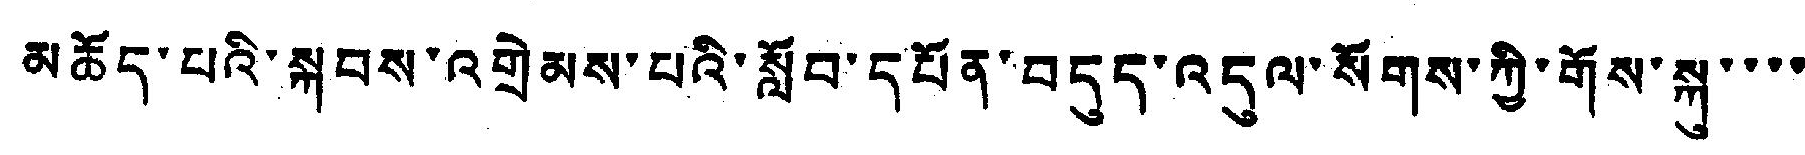མཆོད་པའི་སྐབས་འགྲེམས་པའི་སློབ་དཔོན་བདུད་འདུལ་སོགས་ཀྱི་གོས་སྐུ་་་་
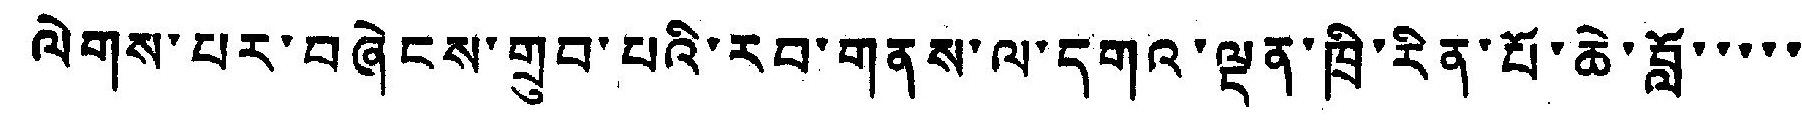ལེགས་པར་བཞེངས་གྲུབ་པའི་རབ་གནས་ལ་དགའ་ལྡན་ཁྲི་རིན་པོ་ཆེ་བློ་་་་་
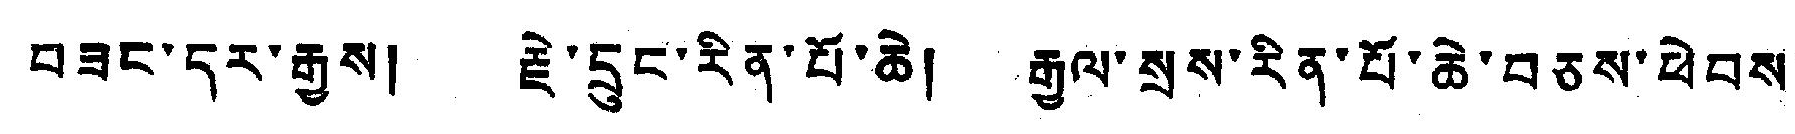བཟང་དུར་རྒྱས། རྗེ་དྲུང་རིན་པོ་ཆེ། རྒྱལ་སྲས་རིན་པོ་ཆེ་བཅས་ཕེབས་
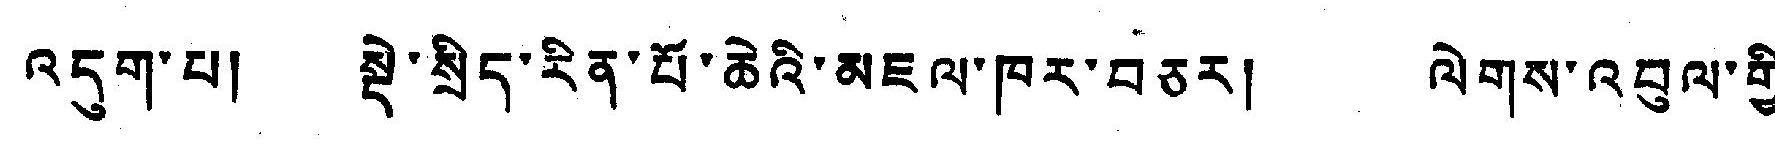འདུག་པ། སྡེ་སྲིད་རིན་པོ་ཆེའི་མཇལ་ཁར་བཅར། ལེགས་འབུལ་གྱི་
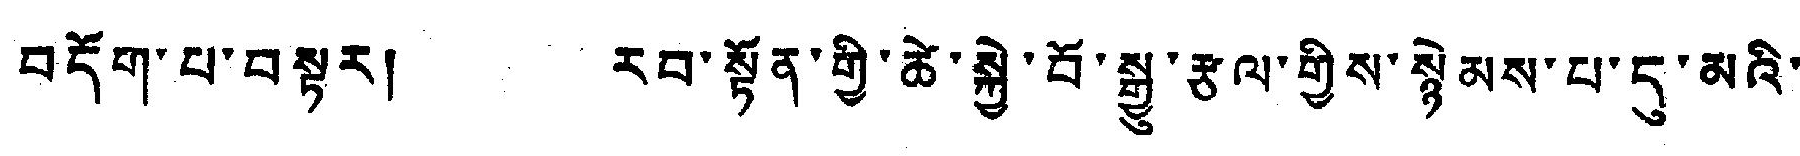བདོག་པ་བསྟར། རབ་སྟོན་གྱི་ཚེ་སྐྱེ་བོ་སྐྱུ་རྩལ་གྱིས་སྙེམས་པ་དུ་མའི་
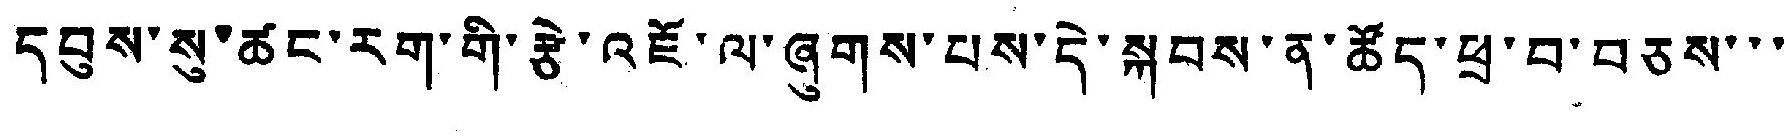དབུས་སུ་ཚང་རག་གི་རྩེ་འཇོ་ལ་ཞུགས་པས་དེ་སྐབས་ན་ཚོད་ཕྲ་བ་བཅས་་་
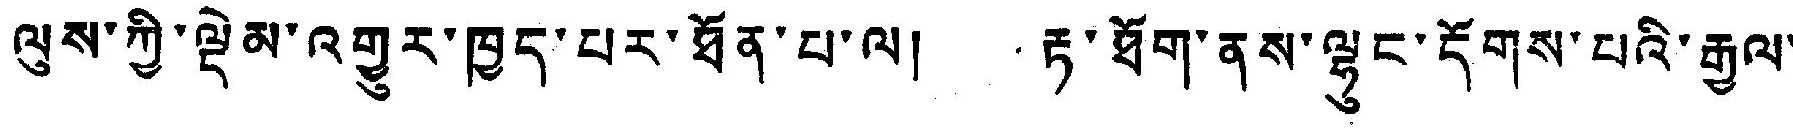ལུས་ཀྱི་ལྡེམ་འགྱུར་ཁྱད་པར་ཐོན་པ་ལ། རྟ་ཐོག་ནས་ལྷུང་དོགས་པའི་རྒྱལ་
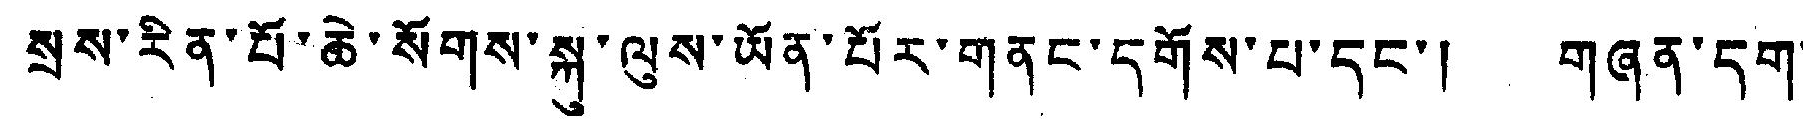སྲས་རིན་པོ་ཆེ་སོགས་སྐུ་ལུས་ཡོན་པོར་གནང་དགོས་པ་དང་། གཞན་དག་
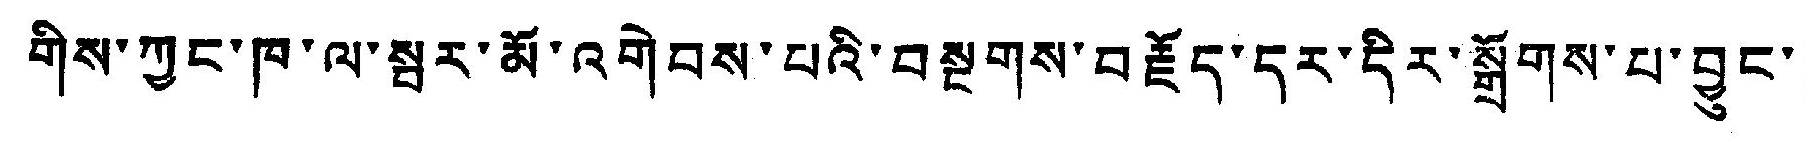གིས་ཀྱང་ཁ་ལ་སྦར་མོ་འགེབས་པའི་བསྔགས་བརྗོད་དར་དིར་སྒྲོགས་པ་བྱུང་།
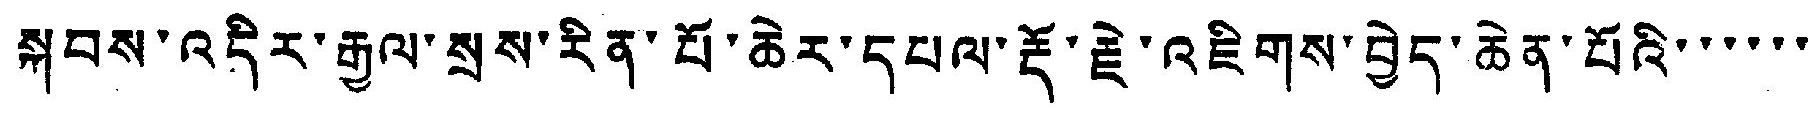སྐབས་འདིར་རྒྱལ་སྲས་རིན་པོ་ཆེར་དཔལ་རྡོ་རྗེ་འཇིགས་བྱེད་ཆེན་པོའི་་་་་་
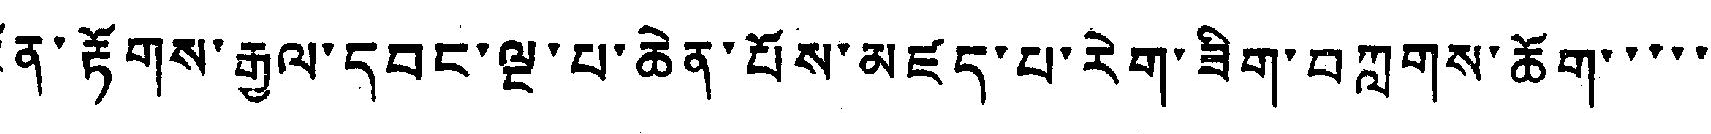མངོན་རྟོགས་རྒྱལ་དབང་ལྔ་པ་ཆེན་པོས་མཛད་པ་རེག་ཟིག་བཀླགས་ཆོག་་་་་
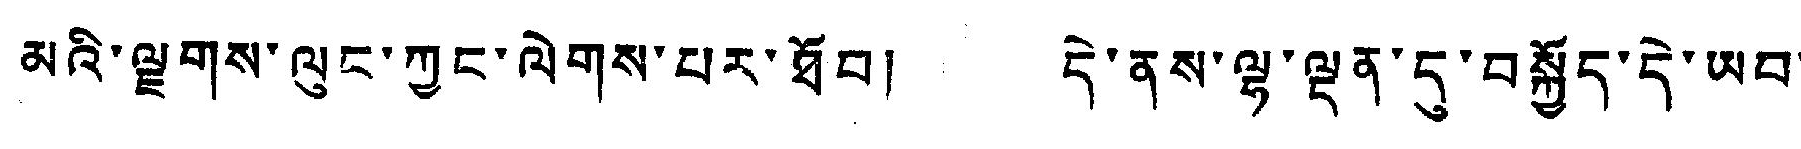མའི་ལྗགས་ལུང་ཀྱང་ལེགས་པར་ཐོབ། དེ་ནས་ལྷ་ལྡན་དུ་བསྐྱོད་དེ་ཡབ་
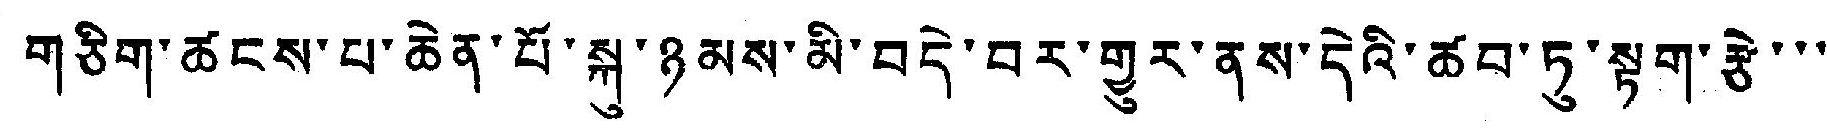གཅིག་ཚངས་པ་ཆེན་པོ་སྐུ་ཉམས་མི་བདེ་བར་གྱུར་ནས་དེའི་ཚབ་ཏུ་སྟག་རྩེ་་་
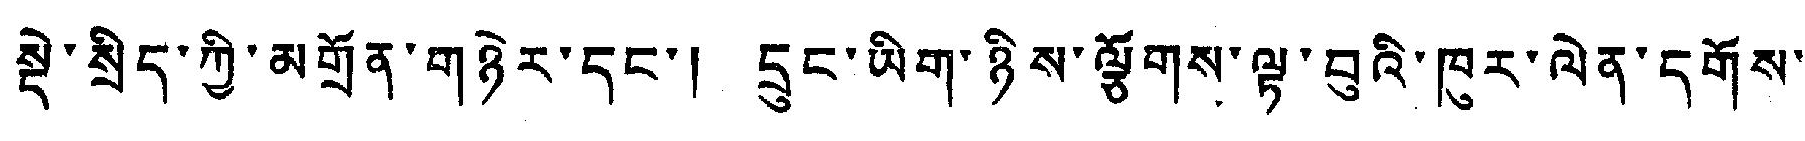སྡེ་སྲིད་ཀྱི་མགྲོན་གཉེར་དང་། དྲུང་ཡིག་ཉིས་ལྕོགས་ལྟ་བུའི་ཁུར་ལེན་དགོས་
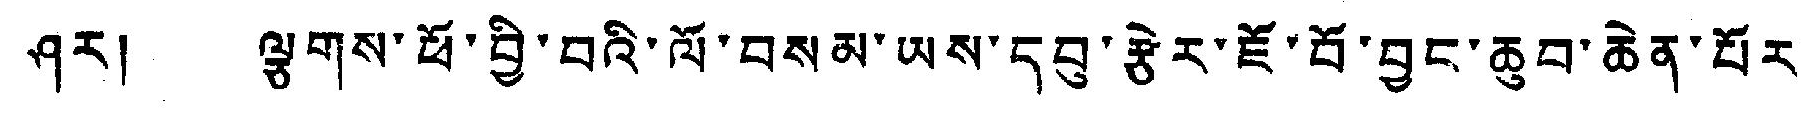ཤར་། ལྕགས་ཕོ་བྱི་བའི་ལོ་བསམ་ཡས་དབུ་རྩེར་ཇོ་བོ་བྱང་ཆུབ་ཆེན་པོར་
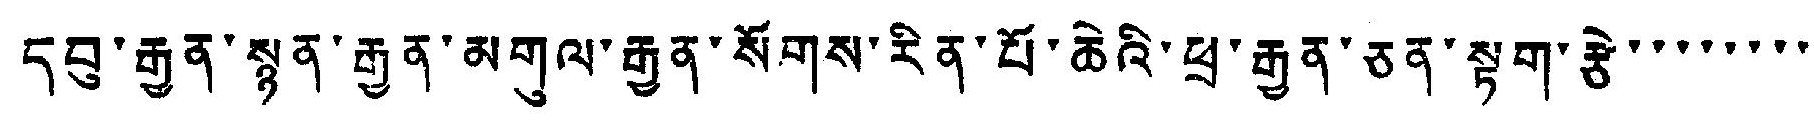དབུ་རྒྱན་སྙན་རྒྱན་མགུལ་རྒྱན་སོགས་རིན་པོ་ཆེའི་ཕྲ་རྒྱན་ཅན་སྟག་རྩེ་་་་་་་་
